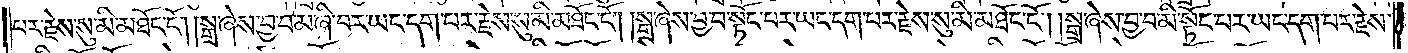པར་རྗེས་སུ་མི་མཐོང་ངོ༌། །སྒྲ་ཞེས་བྱ་བ་མ་ཞི་བར་ཡང་དག་པར་རྗེས་སུ་མི་མཐོང་ངོ༌། །སྒྲ་ཞེས་བྱ་བ་སྟོང་པར་ཡང་དག་པར་རྗེས་སུ་མི་མཐོང་ངོ༌། །སྒྲ་ཞེས་བྱ་བ་མི་སྟོང་པར་ཡང་དག་པར་རྗེས་
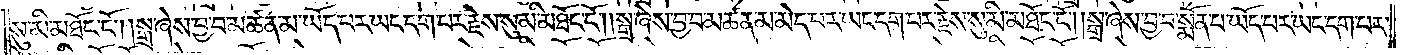སུ་མི་མཐོང་ངོ༌། །སྒྲ་ཞེས་བྱ་བ་མཚན་མ་ཡོད་པར་ཡང་དག་པར་རྗེས་སུ་མི་མཐོང་ངོ༌། །སྒྲ་ཞེས་བྱ་བ་མཚན་མ་མེད་པར་ཡང་དག་པར་རྗེས་སུ་མི་མཐོང་ངོ༌། །སྒྲ་ཞེས་བྱ་བ་སྨོན་པ་ཡོད་པར་ཡང་དག་པར་
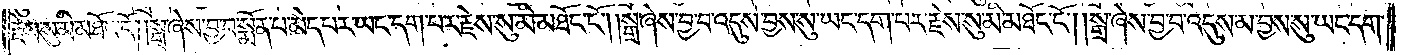རྗེས་སུ་མི་མཐོང་ངོ༌། །སྒྲ་ཞེས་བྱ་བ་སྨོན་པ་མེད་པར་ཡང་དག་པར་རྗེས་སུ་མི་མཐོང་ངོ༌། །སྒྲ་ཞེས་བྱ་བ་འདུས་བྱས་སུ་ཡང་དག་པར་རྗེས་སུ་མི་མཐོང་ངོ༌། །སྒྲ་ཞེས་བྱ་བ་འདུས་མ་བྱས་སུ་ཡང་དག་
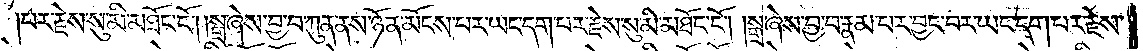པར་རྗེས་སུ་མི་མཐོང་ངོ༌། །སྒྲ་ཞེས་བྱ་བ་ཀུན་ནས་ཉོན་མོངས་པར་ཡང་དག་པར་རྗེས་སུ་མི་མཐོང་ངོ༌། །སྒྲ་ཞེས་བྱ་བ་རྣམ་པར་བྱང་བར་ཡང་དག་པར་རྗེས་
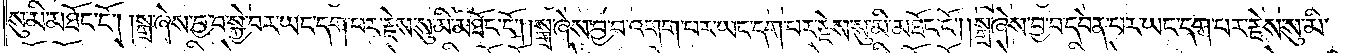སུ་མི་མཐོང་ངོ༌། །སྒྲ་ཞེས་བྱ་བ་སྐྱེ་བར་ཡང་དག་པར་རྗེས་སུ་མི་མཐོང་ངོ༌། །སྒྲ་ཞེས་བྱ་བ་འགག་པར་ཡང་དག་པར་རྗེས་སུ་མི་མཐོང་ངོ༌། །སྒྲ་ཞེས་བྱ་བ་དབེན་པར་ཡང་དག་པར་རྗེས་སུ་མི་
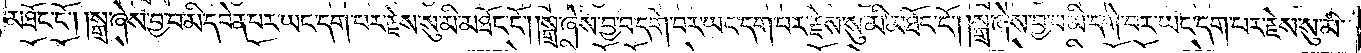མཐོང་ངོ༌། །སྒྲ་ཞེས་བྱ་བ་མི་དབེན་པར་ཡང་དག་པར་རྗེས་སུ་མི་མཐོང་ངོ༌། །སྒྲ་ཞེས་བྱ་བ་དགེ་བར་ཡང་དག་པར་རྗེས་སུ་མི་མཐོང་ངོ༌། །སྒྲ་ཞེས་བྱ་བ་མི་དགེ་བར་ཡང་དག་པར་རྗེས་སུ་མི་
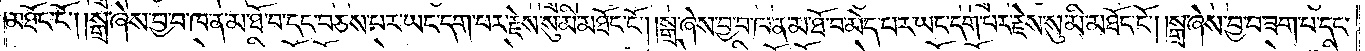མཐོང་ངོ༌། །སྒྲ་ཞེས་བྱ་བ་ཁ་ན་མ་ཐོ་བ་དང་བཅས་པར་ཡང་དག་པར་རྗེས་སུ་མི་མཐོང་ངོ༌། །སྒྲ་ཞེས་བྱ་བ་ཁ་ན་མ་ཐོ་བ་མེད་པར་ཡང་དག་པར་རྗེས་སུ་མི་མཐོང་ངོ༌། །སྒྲ་ཞེས་བྱ་བ་ཟག་པ་དང་
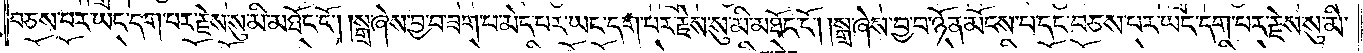བཅས་པར་ཡང་དག་པར་རྗེས་སུ་མི་མཐོང་ངོ༌། །སྒྲ་ཞེས་བྱ་བ་ཟག་པ་མེད་པར་ཡང་དག་པར་རྗེས་སུ་མི་མཐོང་ངོ༌། །སྒྲ་ཞེས་བྱ་བ་ཉོན་མོངས་པ་དང་བཅས་པར་ཡང་དག་པར་རྗེས་སུ་མི་
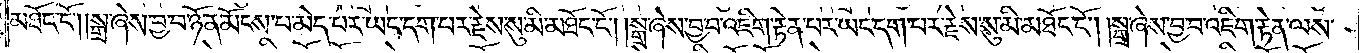མཐོང་ངོ༌། །སྒྲ་ཞེས་བྱ་བ་ཉོན་མོངས་པ་མེད་པར་ཡང་དག་པར་རྗེས་སུ་མི་མཐོང་ངོ༌། །སྒྲ་ཞེས་བྱ་བ་འཇིག་རྟེན་པར་ཡང་དག་པར་རྗེས་སུ་མི་མཐོང་ངོ༌། །སྒྲ་ཞེས་བྱ་བ་འཇིག་རྟེན་ལས་
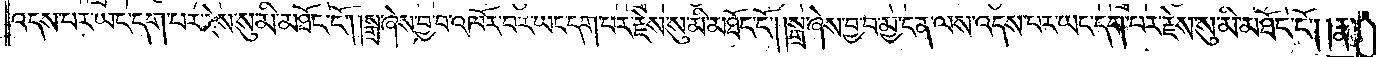འདས་པར་ཡང་དག་པར་རྗེས་སུ་མི་མཐོང་ངོ༌། །སྒྲ་ཞེས་བྱ་བ་འཁོར་བར་ཡང་དག་པར་རྗེས་སུ་མི་མཐོང་ངོ༌། །སྒྲ་ཞེས་བྱ་བ་མྱ་ངན་ལས་འདས་པར་ཡང་དག་པར་རྗེས་སུ་མི་མཐོང་ངོ༌། །རྣ་
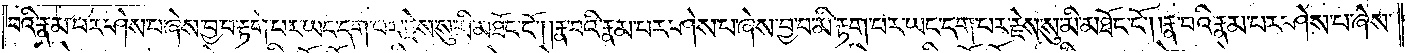བའི་རྣམ་པར་ཤེས་པ་ཞེས་བྱ་བ་རྟག་པར་ཡང་དག་པར་རྗེས་སུ་མི་མཐོང་ངོ༌། །རྣ་བའི་རྣམ་པར་ཤེས་པ་ཞེས་བྱ་བ་མི་རྟག་པར་ཡང་དག་པར་རྗེས་སུ་མི་མཐོང་ངོ༌། །རྣ་བའི་རྣམ་པར་ཤེས་པ་ཞེས་
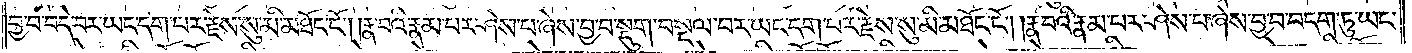བྱ་བ་བདེ་བར་ཡང་དག་པར་རྗེས་སུ་མི་མཐོང་ངོ༌། །རྣ་བའི་རྣམ་པར་ཤེས་པ་ཞེས་བྱ་བ་སྡུག་བསྔལ་བར་ཡང་དག་པར་རྗེས་སུ་མི་མཐོང་ངོ༌། །རྣ་བའི་རྣམ་པར་ཤེས་པ་ཞེས་བྱ་བ་བདག་ཏུ་ཡང་
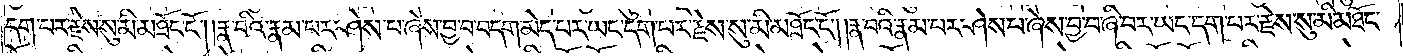དག་པར་རྗེས་སུ་མི་མཐོང་ངོ༌། །རྣ་བའི་རྣམ་པར་ཤེས་པ་ཞེས་བྱ་བ་བདག་མེད་པར་ཡང་དག་པར་རྗེས་སུ་མི་མཐོང་ངོ༌། །རྣ་བའི་རྣམ་པར་ཤེས་པ་ཞེས་བྱ་བ་ཞི་བར་ཡང་དག་པར་རྗེས་སུ་མི་མཐོང་
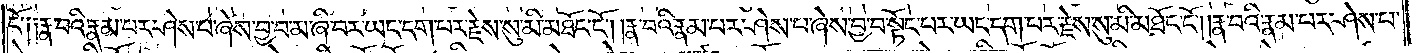ངོ༑ ༑རྣ་བའི་རྣམ་པར་ཤེས་པ་ཞེས་བྱ་བ་མ་ཞི་བར་ཡང་དག་པར་རྗེས་སུ་མི་མཐོང་ངོ༌། །རྣ་བའི་རྣམ་པར་ཤེས་པ་ཞེས་བྱ་བ་སྟོང་པར་ཡང་དག་པར་རྗེས་སུ་མི་མཐོང་ངོ༌། །རྣ་བའི་རྣམ་པར་ཤེས་པ་
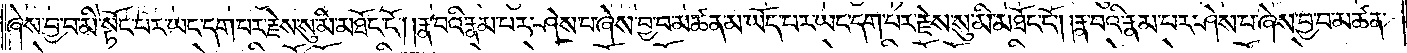ཞེས་བྱ་བ་མི་སྟོང་པར་ཡང་དག་པར་རྗེས་སུ་མི་མཐོང་ངོ༌། །རྣ་བའི་རྣམ་པར་ཤེས་པ་ཞེས་བྱ་བ་མཚན་མ་ཡོད་པར་ཡང་དག་པར་རྗེས་སུ་མི་མཐོང་ངོ༌། །རྣ་བའི་རྣམ་པར་ཤེས་པ་ཞེས་བྱ་བ་མཚན་
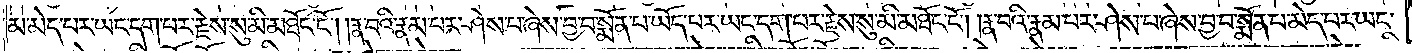མ་མེད་པར་ཡང་དག་པར་རྗེས་སུ་མི་མཐོང་ངོ༌། །རྣ་བའི་རྣམ་པར་ཤེས་པ་ཞེས་བྱ་བ་སྨོན་པ་ཡོད་པར་ཡང་དག་པར་རྗེས་སུ་མི་མཐོང་ངོ༌། །རྣ་བའི་རྣམ་པར་ཤེས་པ་ཞེས་བྱ་བ་སྨོན་པ་མེད་པར་ཡང་
